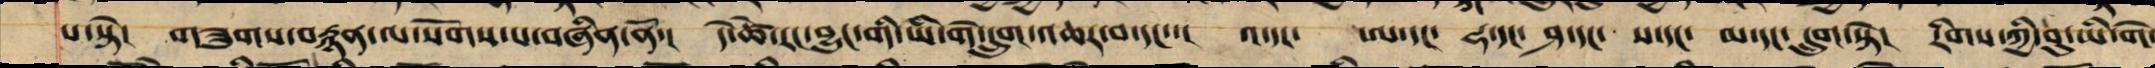པ་སྟེ། གཟུགས་བརྙན་ལ་སོགས་པ་བཞིན་ནོ་། དེ་ཚེ་རང་བྱུང་གི་ཡི་གེ་དྲུག་འཆར་བ་ཡང་་། འ་དང་ ཨ་དང་ ཧ་དང་ ཤ་དང་ ས་དང་ མ་དང་ དྲུག་སྟེ། རིགས་ཀྱི་བུ་ཡི་གེ་
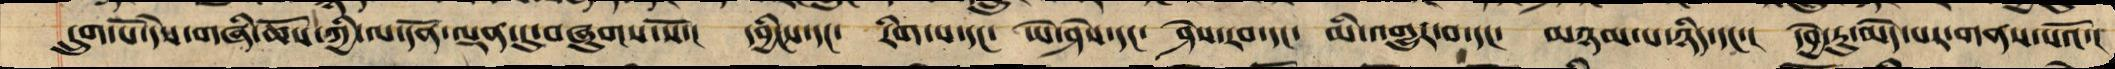དྲུག་པོ་དེས་གཞི་ཆོས་ཀྱི་ལ་དོན་ལྡན་དུ་བཞུགས་སོ་། དབྱིངས་དང་ རིག་པ་དང་ ཡེ་ཤེས་དང་ ཤེས་རབ་དང་ མི་འགྱུར་བ་དང་ མཉམ་པ་ཉིད་དང་ དབྱེ་རུ་མེད་པར་གནས་པའོ་།
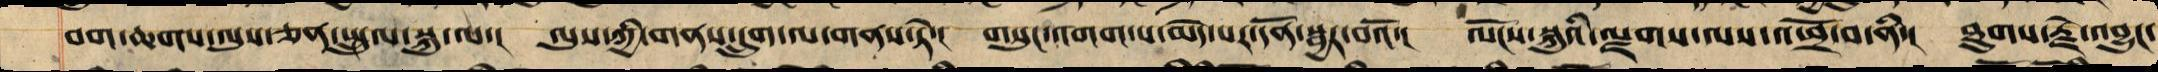བག་ཆགས་ལུས་ཅན་སྤྲུལ་སྐུ་ལ་། ལུས་ཀྱི་གནས་དྲུག་ལ་གནས་ཏེ་། གསུང་འགག་པ་མེད་པར་དོན་ལ་སྦྱར་བའོ་། ལོངས་སྐུའི་ལྗགས་ལས་འཕྲོ་བ་ནི་། ཐུགས་རྗེ་འབྱུང་
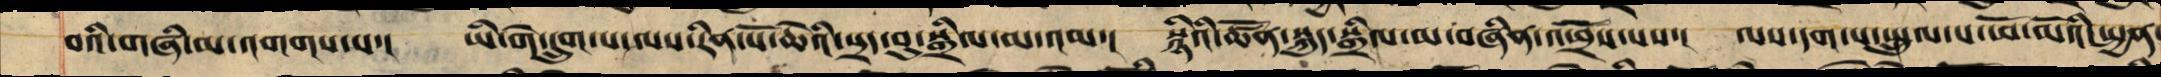བའི་གཞི་མ་འགགས་པ་། ཡི་གེ་དྲུག་པ་ལས་རིན་པོ་ཆེའི་སྲད་བུ་སྒྲིལ་མ་འམ་། སྙིའི་ཚོན་སྐུད་སྒྲིལ་མ་བཞིན་འཕྲོས་པས་། ལས་དག་པ་སྤྲུལ་པ་ཕོ་མོའི་སྤྱན་
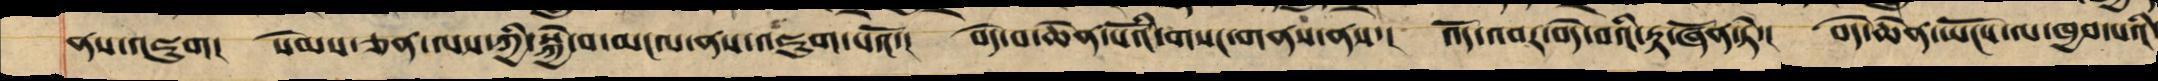ནས་འཇུག། སེམས་ཅན་ལས་ཀྱི་སྐྱེ་བ་མངལ་ནས་འཇུག་པའོ་། བདེ་བ་ཆེན་པོའི་གསང་གནས་ནས་། འོད་འབར་བདེ་བའི་རྟ་ཞོན་ཏེ་། བདེ་ཆེན་ཡོངས་ལ་ཁྱབ་པའི་
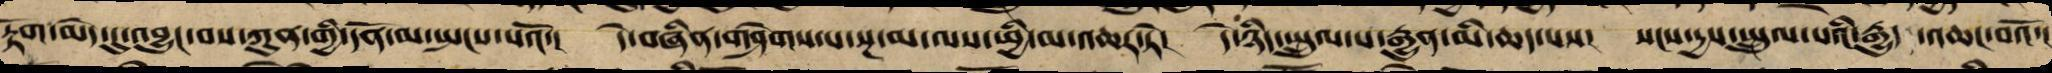རྟོག་མེད་དུ་འབྱུང་བས་ཀུན་གྱི་དོན་མ་སྤངས་པའོ་། དེ་བཞིན་གཤེགས་པ་སྔ་མ་ལས་ཕྱི་མ་འཆར་ཏེ་། དེ་ཉིད་སྤྲུལ་པ་རྒྱུན་མི་ཆད་པས། སངས་རྒྱས་སྤྲུལ་པའི་རྒྱུད ་འཆང་བའོ་།
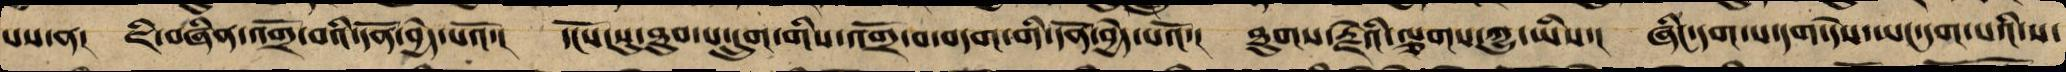པས་ན། ཇི་བཞིན་འགྲོ་བའི་དོན་བྱེད་པའོ་། དངོས་སུ་ཐུབ་པ་དྲུག་གིས་འགྲོ་བ་བདག་གི་དོན་བྱེད་པའོ་། ཐུགས་རྗེའི་ལྕགས་ཀྱུ་ཡིས་། ཞིང་དག་པ་དག་དེས་ཡང་དག་པའི་ས་
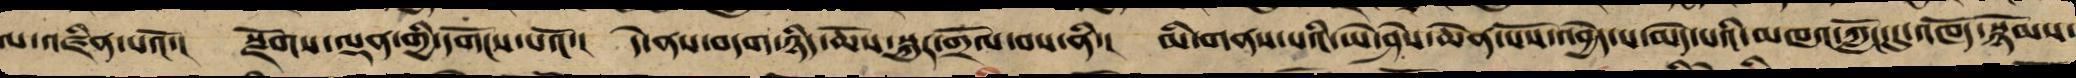ལ་འཛིན་པའོ་། སྫོགས་ལྡན་གྱི་དགོངས་པའོ་། དེ་ནས་བདག་ཉིད་ཆོས་སྐུར་གྲོལ་བས་ནི་། མི་གནས་པའི་ཡེ་ཤེས་ཆེན་པོས་འབྱེད་པ་མེད་པའི་མཁའ་ཀློང་དུ་འཁོད་སྙོམས་
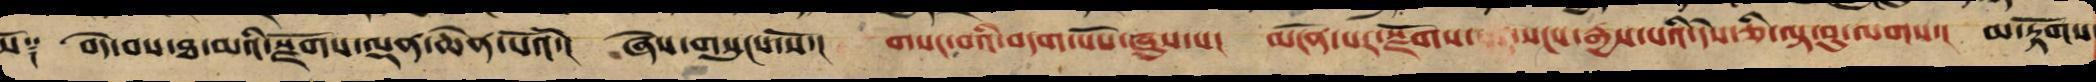སོ༑ བདེ་བས་ཐ་མའི་སྫོགས་ལྡན་ཆེན་པོའོ་། ཞེས་གསུངས་སོ་། གསང་བའི་བདག་པོ་ཞུས་པ། མངོན་པར་རྫོགས་པར་སངས་རྒྱས་པའི་དེས་ཅི་ལྟ་བུ་ལགས་། མ་རྟོགས་
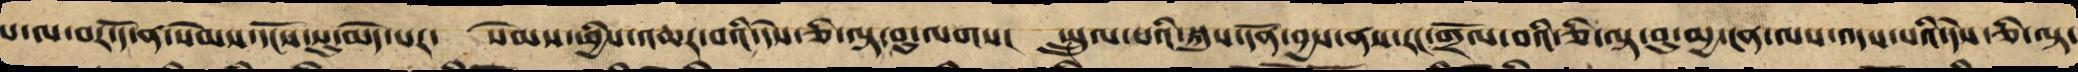པ་ལ་བར་དོ་ན་སེམས་དངོས་སུ་མེད་པར་ སེམས་ཕྱིས་འཆར་བའི་དཔེ་ཅི་ལྟ་བུ་ལགས། སྤྲུལ་པའི་སྐུས་དོན་བྱས་ནས་རང་གྲོལ་བའི་ཅི་ལྟ་བུ་མྱ་ངན་ལས་འདས་པའི་དེས་ཅི་ལྟ་
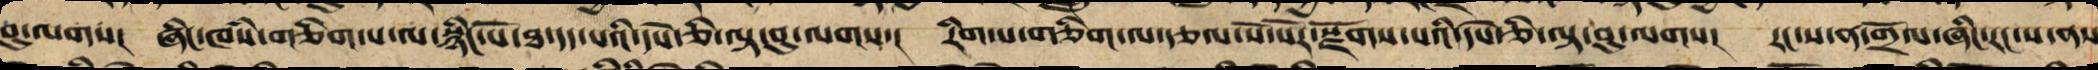བུ་ལགས། ཞིང་ཁཾས་གཅིག་པ་ལ་སྙིང་པོ་ཐ་དད་པའི་དཔེ་ཅི་ལྟ་བུ་ལགས་། རིག་པ་གཅིག་ལ་རྩལ་སོ་སོར་སྫོགས་པའི་དཔེ་ཅི་ལྟ་བུ་ལགས། རང་ས་ན་གྲོལ་ཞིང་རང་ས་ནས
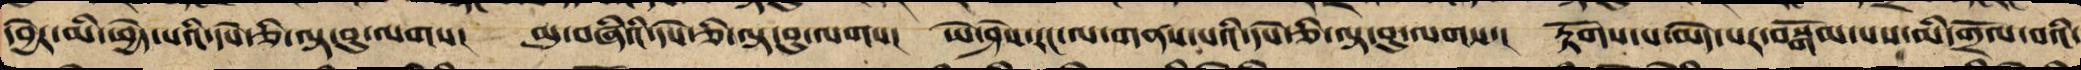དབྱེར་མི་ཕྱེད་པའི་དཔེ་ཅི་ལྟ་བུ་ལགས། མུ་བཞིའི་དཔེ་ཅི་ལྟ་བུ་ལགས། ཡེ་ཤེས་རང་ལ་གནས་པའི་དཔེ་ཅི་ལྟ་བུ་ལགས་། རྟོགས་པ་མེད་པར་བསྒོམ་པས་མི་གྲོལ་བའི་
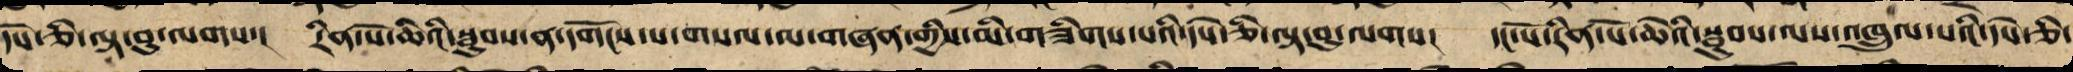དཔེ་ཅི་ལྟ་བུ་ལགས་། རིན་པོ་ཆེའི་སྦུབས་ན་དགོངས་པ་གསལ་ལ་གཞན་གྱིས་མི་གཟིགས་པའི་དཔེ་ཅི་ལྟ་བུ་ལགས། དང་པོ་རིན་པོ་ཆེའི་སྦུབས་ལས་འཁྲུལ་པའི་དཔེ་ཅི་
